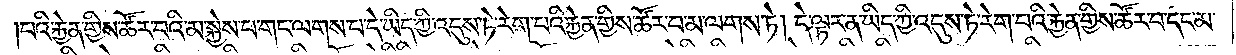པའི་རྐྱེན་གྱིས་ཚོར་བའི་མ་སྐྱེས་པ་གང་ལགས་པ་དེ་ཡིད་ཀྱི་འདུས་ཏེ་རེག་པའི་རྐྱེན་གྱིས་ཚོར་བ་མ་ལགས་ཏེ། དེ་ལྟར་ན་ཡིད་ཀྱི་འདུས་ཏེ་རེག་པའི་རྐྱེན་གྱིས་ཚོར་བ་དང་མ་
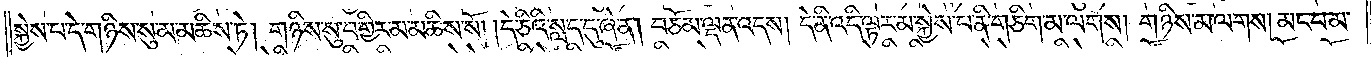སྐྱེས་པ་དེ་གཉིས་སུ་མ་མཆིས་ཏེ། གཉིས་སུ་བགྱིར་མ་མཆིས་སོ། །དེ་ཅིའི་སླད་དུ་ཞེ་ན། བཅོམ་ལྡན་འདས། དེ་ནི་འདི་ལྟར་མ་སྐྱེས་པ་ནི་གཅིག་མ་ལགས། གཉིས་མ་ལགས། མང་བ་མ་
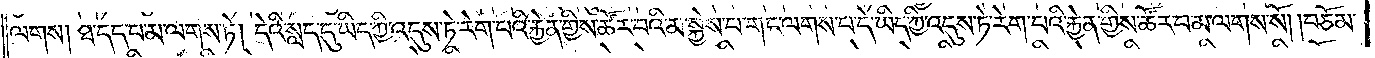ལགས། ཐ་དད་པ་མ་ལགས་ཏེ། དེའི་སླད་དུ་ཡིད་ཀྱི་འདུས་ཏེ་རེག་པའི་རྐྱེན་གྱིས་ཚོར་བའི་མ་སྐྱེས་པ་གང་ལགས་པ་དེ་ཡིད་ཀྱི་འདུས་ཏེ་རེག་པའི་རྐྱེན་གྱིས་ཚོར་བ་མ་ལགས་སོ། །བཅོམ་
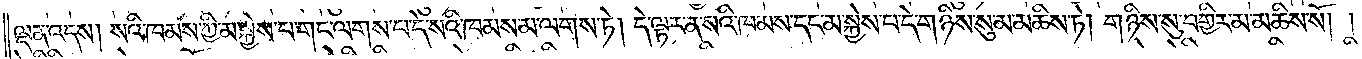ལྡན་འདས། སའི་ཁམས་ཀྱི་མ་སྐྱེས་པ་གང་ལགས་པ་དེ་སའི་ཁམས་མ་ལགས་ཏེ། དེ་ལྟར་ན་སའི་ཁམས་དང་མ་སྐྱེས་པ་དེ་གཉིས་སུ་མ་མཆིས་ཏེ། གཉིས་སུ་བགྱིར་མ་མཆིས་སོ། །
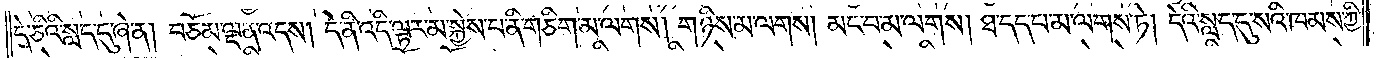དེ་ཅིའི་སླད་དུ་ཞེ་ན། བཅོམ་ལྡན་འདས། དེ་ནི་འདི་ལྟར་མ་སྐྱེས་པ་ནི་གཅིག་མ་ལགས། གཉིས་མ་ལགས། མང་བ་མ་ལགས། ཐ་དད་པ་མ་ལགས་ཏེ། དེའི་སླད་དུ་སའི་ཁམས་ཀྱི་
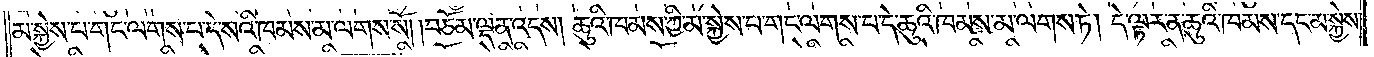མ་སྐྱེས་པ་གང་ལགས་པ་དེ་སའི་ཁམས་མ་ལགས་སོ། །བཅོམ་ལྡན་འདས། ཆུའི་ཁམས་ཀྱི་མ་སྐྱེས་པ་གང་ལགས་པ་དེ་ཆུའི་ཁམས་མ་ལགས་ཏེ། དེ་ལྟར་ན་ཆུའི་ཁམས་དང་མ་སྐྱེས་
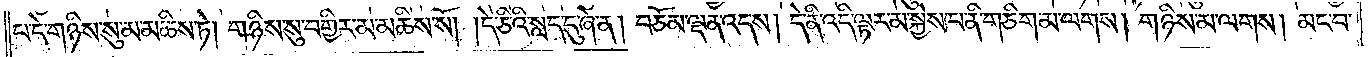པ་དེ་གཉིས་སུ་མ་མཆིས་ཏེ། གཉིས་སུ་བགྱིར་མ་མཆིས་སོ། །དེ་ཅིའི་སླད་དུ་ཞེ་ན། བཅོམ་ལྡན་འདས་དེ་ནི་འདི་ལྟར་མ་སྐྱེས་པ་ནི་གཅིག་མ་ལགས། གཉིས་མ་ལགས། མང་བ་
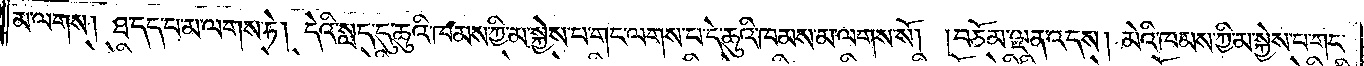མ་ལགས། ཐ་དད་པ་མ་ལགས་ཏེ། དེའི་སླད་དུ་ཆུའི་ཁམས་ཀྱི་མ་སྐྱེས་པ་གང་ལགས་པ་དེ་ཆུའི་ཁམས་མ་ལགས་སོ། །བཅོམ་ལྡན་འདས། མེའི་ཁམས་ཀྱི་མ་སྐྱེས་པ་གང་
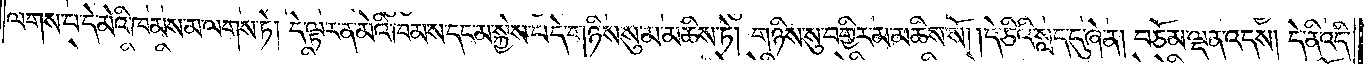ལགས་པ་དེ་མེའི་ཁམས་མ་ལགས་ཏེ། དེ་ལྟར་ན་མེའི་ཁམས་དང་མ་སྐྱེས་པ་དེ་གཉིས་སུ་མ་མཆིས་ཏེ། གཉིས་སུ་བགྱིར་མ་མཆིས་སོ། །དེ་ཅིའི་སླད་དུ་ཞེ་ན། བཅོམ་ལྡན་འདས། དེ་ནི་འདི་
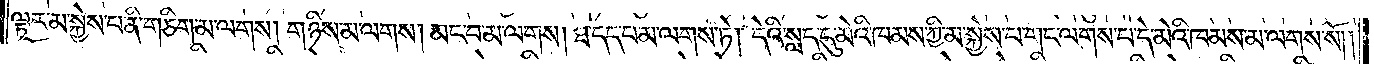ལྟར་མ་སྐྱེས་པ་ནི་གཅིག་མ་ལགས། གཉིས་མ་ལགས། མང་བ་མ་ལགས། ཐ་དད་པ་མ་ལགས་ཏེ། དེའི་སླད་དུ་མེའི་ཁམས་ཀྱི་མ་སྐྱེས་པ་གང་ལགས་པ་དེ་མེའི་ཁམས་མ་ལགས་སོ། །
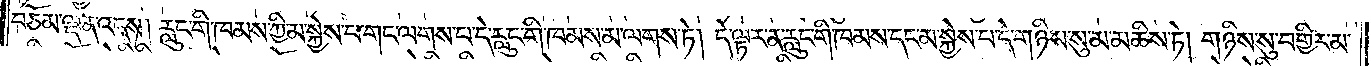བཅོམ་ལྡན་འདས། རླུང་གི་ཁམས་ཀྱི་མ་སྐྱེས་པ་གང་ལགས་པ་དེ་རླུང་གི་ཁམས་མ་ལགས་ཏེ། དེ་ལྟར་ན་རླུང་གི་ཁམས་དང་མ་སྐྱེས་པ་དེ་གཉིས་སུ་མ་མཆིས་ཏེ། གཉིས་སུ་བགྱིར་མ་
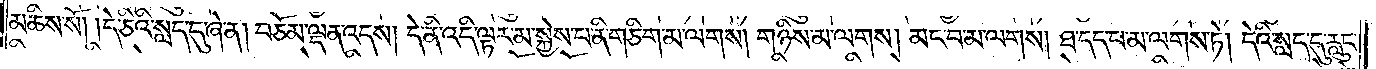མཆིས་སོ། །དེ་ཅིའི་སླད་དུ་ཞེ་ན། བཅོམ་ལྡན་འདས། དེ་ནི་འདི་ལྟར་མ་སྐྱེས་པ་ནི་གཅིག་མ་ལགས། གཉིས་མ་ལགས། མང་བ་མ་ལགས། ཐ་དད་པ་མ་ལགས་ཏེ། དེའི་སླད་དུ་རླུང་
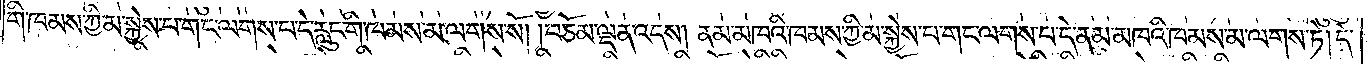གི་ཁམས་ཀྱི་མ་སྐྱེས་པ་གང་ལགས་པ་དེ་རླུང་གི་ཁམས་མ་ལགས་སོ། །བཅོམ་ལྡན་འདས། ནམ་མཁའི་ཁམས་ཀྱི་མ་སྐྱེས་པ་གང་ལགས་པ་དེ་ནམ་མཁའི་ཁམས་མ་ལགས་ཏེ། དེ་
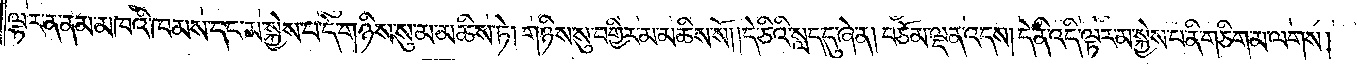ལྟར་ན་ནམ་མཁའི་ཁམས་དང་མ་སྐྱེས་པ་དེ་གཉིས་སུ་མ་མཆིས་ཏེ་གཉིས་སུ་བགྱིར་མ་མཆིས་སོ། །དེ་ཅིའི་སླད་དུ་ཞེ་ན། བཅོམ་ལྡན་འདས་དེ་ནི་འདི་ལྟར་མ་སྐྱེས་པ་ནི་གཅིག་མ་ལགས།
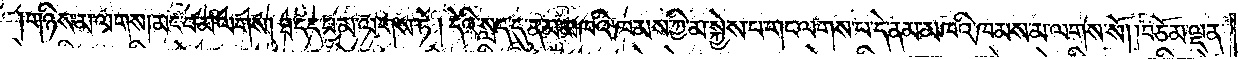གཉིས་མ་ལགས། མང་བ་མ་ལགས། ཐ་དད་པ་མ་ལགས་ཏེ། དེའི་སླད་དུ་ནམ་མཁའི་ཁམས་ཀྱི་མ་སྐྱེས་པ་གང་ལགས་པ་དེ་ནམ་མཁའི་ཁམས་མ་ལགས་སོ། །བཅོམ་ལྡན་
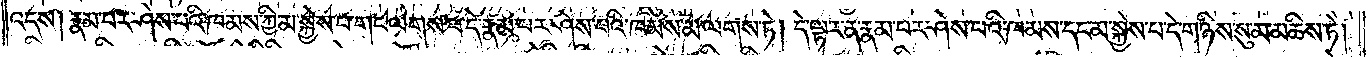འདས། རྣམ་པར་ཤེས་པའི་ཁམས་ཀྱི་མ་སྐྱེས་པ་གང་ལགས་པ་དེ་རྣམ་པར་ཤེས་པའི་ཁམས་མ་ལགས་ཏེ། དེ་ལྟར་ན་རྣམ་པར་ཤེས་པའི་ཁམས་དང་མ་སྐྱེས་པ་དེ་གཉིས་སུ་མ་མཆིས་ཏེ།
